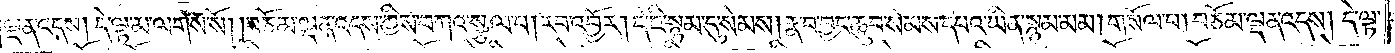ལྡན་འདས། དེ་ལྟ་མ་ལགས་སོ། །བཅོམ་ལྡན་འདས་ཀྱིས་བཀའ་སྩལ་པ། རབ་འབྱོར། དེ་ཇི་སྙམ་དུ་སེམས། རྣ་བ་བྱང་ཆུབ་སེམས་དཔའ་ཡིན་སྙམ་མམ། གསོལ་པ། བཅོམ་ལྡན་འདས། དེ་ལྟ་
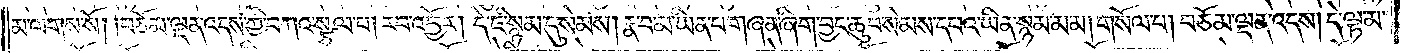མ་ལགས་སོ། །བཅོམ་ལྡན་འདས་ཀྱི་བཀའ་སྩལ་པ། རབ་འབྱོར། དེ་ཇི་སྙམ་དུ་སེམས། རྣ་བ་མ་ཡིན་པ་གཞན་ཞིག་བྱང་ཆུབ་སེམས་དཔའ་ཡིན་སྙམ་མམ། གསོལ་པ། བཅོམ་ལྡན་འདས། དེ་ལྟ་མ་
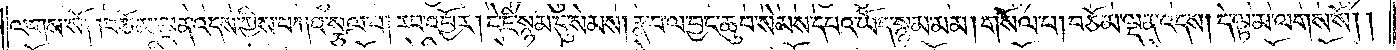ལགས་སོ། །བཅོམ་ལྡན་འདས་ཀྱིས་བཀའ་སྩལ་པ། རབ་འབྱོར། དེ་ཇི་སྙམ་དུ་སེམས། རྣ་བ་ལ་བྱང་ཆུབ་སེམས་དཔའ་ཡོད་སྙམ་མམ། གསོལ་པ། བཅོམ་ལྡན་འདས། དེ་ལྟ་མ་ལགས་སོ། །
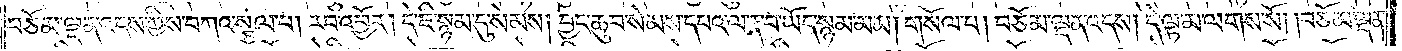བཅོམ་ལྡན་འདས་ཀྱིས་བཀའ་སྩལ་པ། རབ་འབྱོར། དེ་ཇི་སྙམ་དུ་སེམས། བྱང་ཆུབ་སེམས་དཔའ་ལ་རྣ་བ་ཡོད་སྙམ་མམ། གསོལ་པ། བཅོམ་ལྡན་འདས། དེ་ལྟ་མ་ལགས་སོ། །བཅོམ་ལྡན་
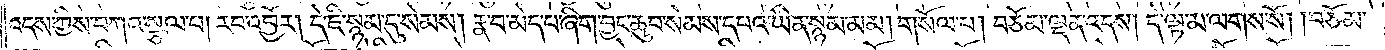འདས་ཀྱིས་བཀའ་སྩལ་པ། རབ་འབྱོར། དེ་ཇི་སྙམ་དུ་སེམས། རྣ་བ་མེད་པ་ཞིག་བྱང་ཆུབ་སེམས་དཔའ་ཡིན་སྙམ་མམ། གསོལ་པ། བཅོམ་ལྡན་འདས། དེ་ལྟ་མ་ལགས་སོ། །བཅོམ་
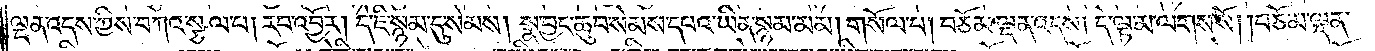ལྡན་འདས་ཀྱིས་བཀའ་སྩལ་པ། རབ་འབྱོར། དེ་ཇི་སྙམ་དུ་སེམས། སྣ་བྱང་ཆུབ་སེམས་དཔའ་ཡིན་སྙམ་མམ། གསོལ་པ། བཅོམ་ལྡན་འདས། དེ་ལྟ་མ་ལགས་སོ། །བཅོམ་ལྡན་
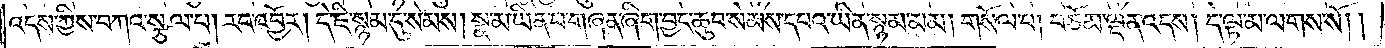འདས་ཀྱིས་བཀའ་སྩལ་པ། རབ་འབྱོར། དེ་ཇི་སྙམ་དུ་སེམས། སྣ་མ་ཡིན་པ་གཞན་ཞིག་བྱང་ཆུབ་སེམས་དཔའ་ཡིན་སྙམ་མམ། གསོལ་པ། བཅོམ་ལྡན་འདས། དེ་ལྟ་མ་ལགས་སོ། །
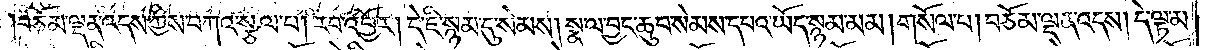བཅོམ་ལྡན་འདས་ཀྱིས་བཀའ་སྩལ་པ། རབ་འབྱོར། དེ་ཇི་སྙམ་དུ་སེམས། སྣ་ལ་བྱང་ཆུབ་སེམས་དཔའ་ཡོད་སྙམ་མམ། གསོལ་པ། བཅོམ་ལྡན་འདས། དེ་ལྟ་མ་
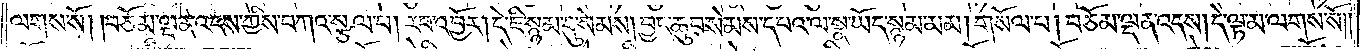ལགས་སོ། །བཅོམ་ལྡན་འདས་ཀྱིས་བཀའ་སྩལ་པ། རབ་འབྱོར། དེ་ཇི་སྙམ་དུ་སེམས། བྱང་ཆུབ་སེམས་དཔའ་ལ་སྣ་ཡོད་སྙམ་མམ། གསོལ་པ། བཅོམ་ལྡན་འདས། དེ་ལྟ་མ་ལགས་སོ༎
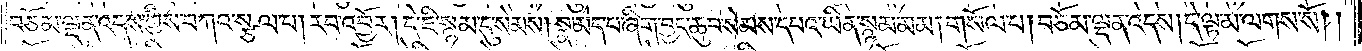བཅོམ་ལྡན་འདས་ཀྱིས་བཀའ་སྩལ་པ། རབ་འབྱོར། དེ་ཇི་སྙམ་དུ་སེམས། སྣ་མེད་པ་ཞིག་བྱང་ཆུབ་སེམས་དཔའ་ཡིན་སྙམ་མམ། གསོལ་པ། བཅོམ་ལྡན་འདས། དེ་ལྟ་མ་ལགས་སོ། །
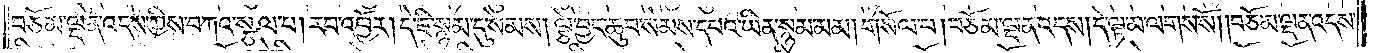བཅོམ་ལྡན་འདས་ཀྱིས་བཀའ་སྩལ་པ། རབ་འབྱོར། དེ་ཇི་སྙམ་དུ་སེམས། ལྕེ་བྱང་ཆུབ་སེམས་དཔའ་ཡིན་སྙམ་མམ། གསོལ་པ། བཅོམ་ལྡན་འདས། དེ་ལྟ་མ་ལགས་སོ། །བཅོམ་ལྡན་འདས་
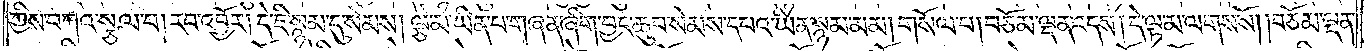ཀྱིས་བཀའ་སྩལ་པ། རབ་འབྱོར། དེ་ཇི་སྙམ་དུ་སེམས། ལྕེ་མ་ཡིན་པ་གཞན་ཞིག་བྱང་ཆུབ་སེམས་དཔའ་ཡིན་སྙམ་མམ། གསོལ་པ། བཅོམ་ལྡན་འདས། དེ་ལྟ་མ་ལགས་སོ། །བཅོམ་ལྡན་
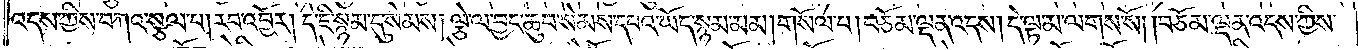འདས་ཀྱིས་བཀའ་སྩལ་པ། རབ་འབྱོར། དེ་ཇི་སྙམ་དུ་སེམས། ལྕེ་ལ་བྱང་ཆུབ་སེམས་དཔའ་ཡོད་སྙམ་མམ། གསོལ་པ། བཅོམ་ལྡན་འདས། དེ་ལྟ་མ་ལགས་སོ། །བཅོམ་ལྡན་འདས་ཀྱིས་
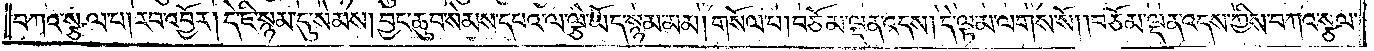བཀའ་སྩལ་པ། རབ་འབྱོར། དེ་ཇི་སྙམ་དུ་སེམས། བྱང་ཆུབ་སེམས་དཔའ་ལ་ལྕེ་ཡོད་སྙམ་མམ། གསོལ་པ། བཅོམ་ལྡན་འདས། དེ་ལྟ་མ་ལགས་སོ། །བཅོམ་ལྡན་འདས་ཀྱིས་བཀའ་སྩལ་
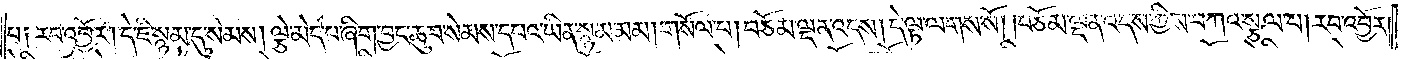པ༑ རབ་འབྱོར། དེ་ཇི་སྙམ་དུ་སེམས། ལྕེ་མེད་པ་ཞིག་བྱང་ཆུབ་སེམས་དཔའ་ཡིན་སྙམ་མམ། གསོལ་པ། བཅོམ་ལྡན་འདས། དེ་ལྟ་ལགས་སོ། །བཅོམ་ལྡན་འདས་ཀྱིས་བཀའ་སྩལ་པ། རབ་འབྱོར།
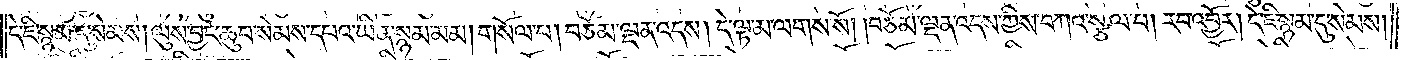དེ་ཇི་སྙམ་དུ་སེམས། ལུས་བྱང་ཆུབ་སེམས་དཔའ་ཡིན་སྙམ་མམ། གསོལ་པ། བཅོམ་ལྡན་འདས། དེ་ལྟ་མ་ལགས་སོ། །བཅོམ་ལྡན་འདས་ཀྱིས་བཀའ་སྩལ་པ། རབ་འབྱོར། དེ་ཇི་སྙམ་དུ་སེམས།
